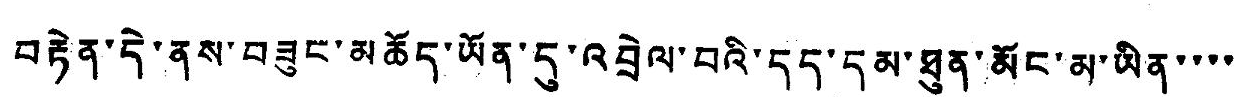བརྟེན་དེ་ནས་བཟུང་མཆོད་ཡོན་དུ་འབྲེལ་བའི་དད་དམ་ཐུན་མོང་མ་ཡིན་་་་
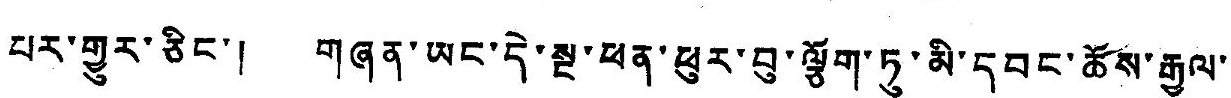པར་གྱུར་ཅིང་། གཞན་ཡང་དེ་སྔ་ཕན་ཕུར་བུ་ལྕོག་ཏུ་མི་དབང་ཆོས་རྒྱལ་
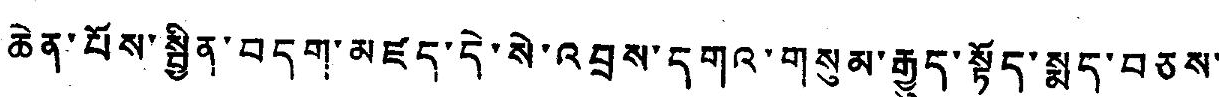ཆེན་པོས་སྦྱིན་བདག་མཛད་དེ་སེ་འབྲས་དགའ་གསུམ་རྒྱུད་སྟོད་སྨད་བཅས་
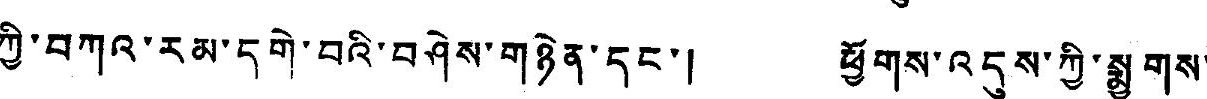ཀྱི་བཀའ་རམ་དགེ་བའི་བཤེས་གཉེན་དང་། ཕྱོགས་འདུས་ཀྱི་སྨྱུགས་
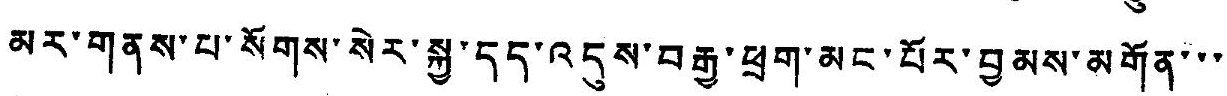མར་གནས་པ་སོགས་སེར་སྐྱ་དད་འདུས་བརྒྱ་ཕྲག་མང་པོར་བྱམས་མགོན་་་
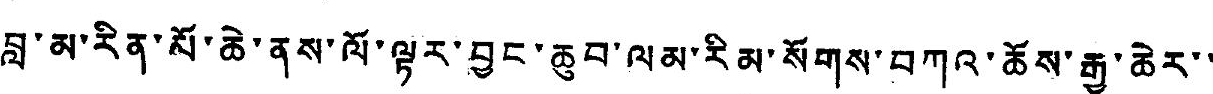བླ་མ་རིན་པོ་ཆེ་ནས་ལོ་ལྟར་བྱང་ཆུབ་ལམ་རིམ་སོགས་བཀའ་ཆོས་རྒྱ་ཆེར་་
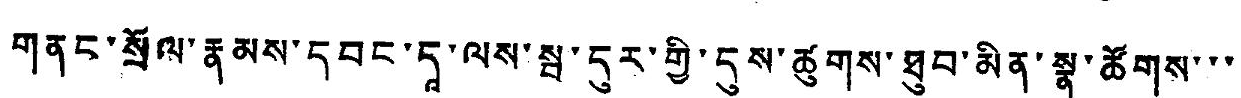གནང་སྲོལ་རྣམས་དབང་དའ་ལས་སྦ་དུར་གྱི་དུས་ཚུགས་ཐུབ་མིན་སྣ་ཚོགས་་་
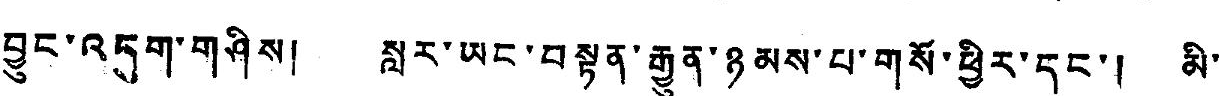བྱུང་འདུག་གཤིས། སླར་ཡང་བསྟན་རྒྱུན་ཉམས་པ་གསོ་ཕྱིར་དང་། མི་
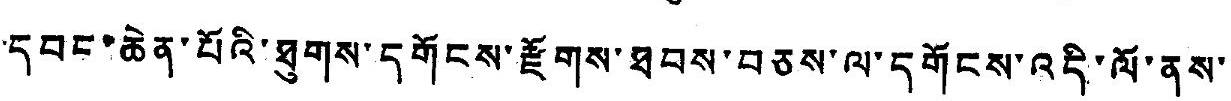དབང་ཆེན་པོའི་ཐུགས་དགོངས་རྫོགས་ཐབས་བཅས་ལ་དགོངས་འདི་ལོ་ནས་
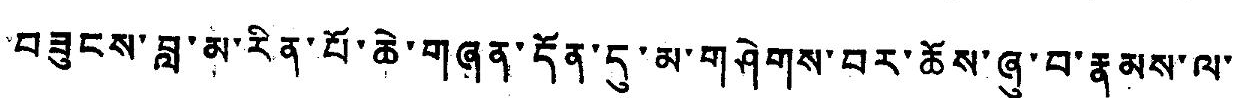བཟུངས་བླ་མ་རིན་པོ་ཆེ་གཞན་དོན་དུ་མ་གཤེགས་བར་ཆོས་ཞུ་བ་རྣམས་ལ་
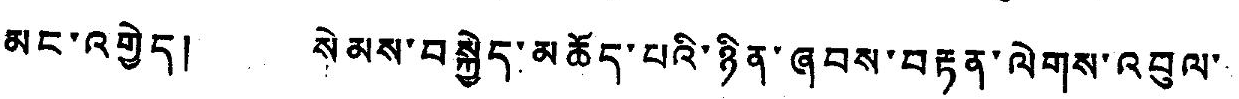མང་འགྱེད། སེམས་བསྐྱེད་མཆོད་པའི་ཉིན་ཞབས་བརྟན་ལེགས་འབུལ་
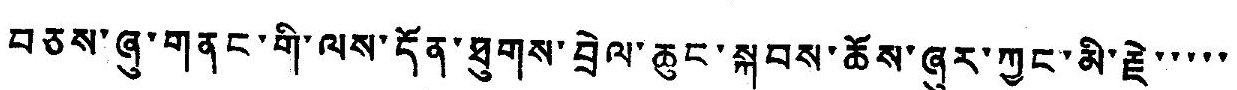བཅས་ཞུ་གནང་གི་ལས་དོན་ཐུགས་བྲེལ་ཆུང་སྐབས་ཆོས་ཞུར་ཀྱང་མི་རྗེ་་་་་
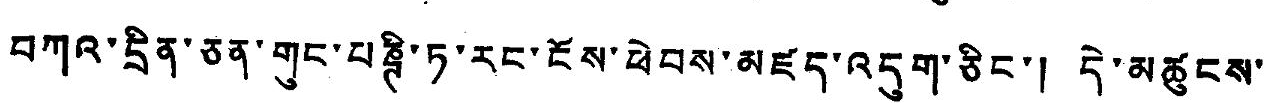བཀའ་དྲིན་ཅན་གུང་པཎྚི་ཏ་རང་ངོས་ཕེབས་མཛད་འདུག་ཅིང་། དེ་མཚུངས་
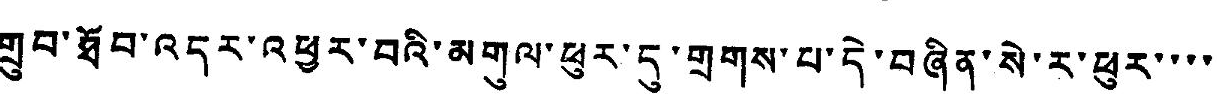གྲུབ་ཐོབ་འདར་འཕྱར་བའི་མགུལ་ཕུར་དུ་གྲགས་པ་དེ་བཞིན་སེ་ར་ཕུར་་་་
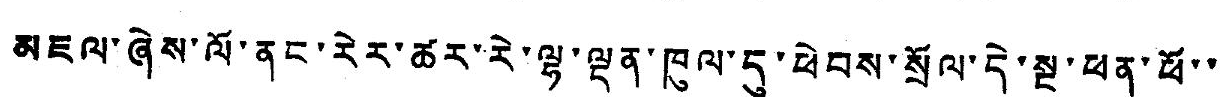མཇལ་ཞེས་ལོ་ནང་རེར་ཚར་རེ་ལྷ་ལྡན་ཁུལ་དུ་ཕེབས་སྲོལ་དེ་སྔ་ཕན་ཕོ་་
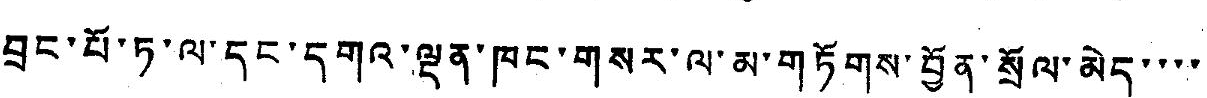བྲང་པོ་ཏ་ལ་དང་དགའ་ལྡན་ཁང་གསར་ལ་མ་གཏོགས་བྱོན་སྲོལ་མེད་་་་
